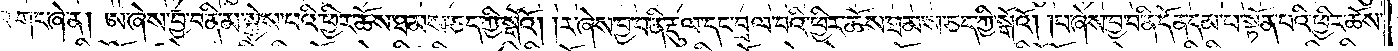གང་ཞེ་ན། ཨ་ཞེས་བྱ་བ་ནི་མ་སྐྱེས་པའི་ཕྱིར་ཆོས་ཐམས་ཅད་ཀྱི་སྒོའོ། །ར་ཞེས་བྱ་བ་ནི་རྡུལ་དང་བྲལ་བའི་ཕྱིར་ཆོས་ཐམས་ཅད་ཀྱི་སྒོའོ། །པ་ཞེས་བྱ་བ་ནི་དོན་དམ་པ་སྟོན་པའི་ཕྱིར་ཆོས་
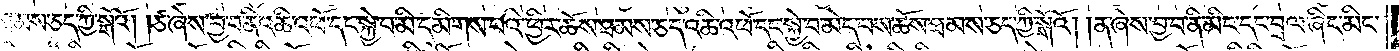ཐམས་ཅད་ཀྱི་སྒོའོ། །ཅ་ཞེས་བྱ་བ་ནི་འཆི་འཕོ་དང་སྐྱེ་བ་མི་དམིགས་པའི་ཕྱིར་ཆོས་ཐམས་ཅད་འཆི་འཕོ་དང་སྐྱེ་བ་མེད་པས་ཆོས་ཐམས་ཅད་ཀྱི་སྒོའོ། །ན་ཞེས་བྱ་བ་ནི་མིང་དང་བྲལ་ཞིང་མིང་
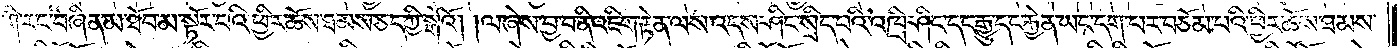གི་རང་བཞིན་མ་ཐོབ་མ་སྟོར་བའི་ཕྱིར་ཆོས་ཐམས་ཅད་ཀྱི་སྒོའོ། །ལ་ཞེས་བྱ་བ་ནི་འཇིག་རྟེན་ལས་འདས་ཤིང་སྲིད་པའི་འཁྲི་ཤིང་དང་རྒྱུ་དང་རྐྱེན་ཡང་དག་པར་བཅོམ་པའི་ཕྱིར་ཆོས་ཐམས་
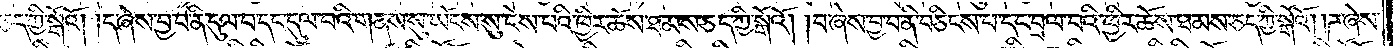ཅད་ཀྱི་སྒོའོ། །ད་ཞེས་བྱ་བ་ནི་དུལ་བ་དང་དུལ་བའི་གནས་སུ་ཡོངས་སུ་ངེས་པའི་ཕྱིར་ཆོས་ཐམས་ཅད་ཀྱི་སྒོའོ། །བ་ཞེས་བྱ་བ་ནི་བཅིངས་པ་དང་བྲལ་བའི་ཕྱིར་ཆོས་ཐམས་ཅད་ཀྱི་སྒོའོ། །ཌ་ཞེས་
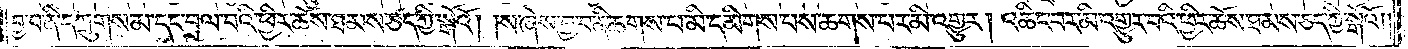བྱ་བ་ནི་དཀྲུགས་མ་དང་བྲལ་བའི་ཕྱིར་ཆོས་ཐམས་ཅད་ཀྱི་སྒོའོ། །ས་ཞེས་བྱ་བ་ནི་ཆགས་པ་མི་དམིགས་པས་ཆགས་པར་མི་འགྱུར། འཆིང་བར་མི་འགྱུར་བའི་ཕྱིར་ཆོས་ཐམས་ཅད་ཀྱི་སྒོའོ། །
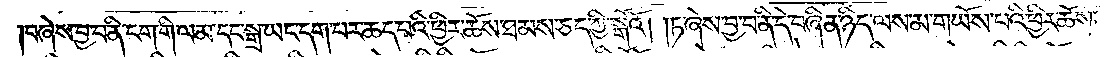བཞེས་བྱ་བ་ནི་ངག་གི་ལམ་དང་སྒྲ་ཡང་དག་པར་ཆད་པའི་ཕྱིར་ཆོས་ཐམས་ཅད་ཀྱི་སྒོའོ། །ཏ་ཞེས་བྱ་བ་ནི་དེ་བཞིན་ཉིད་ལས་མ་གཡོས་པའི་ཕྱིར་ཆོས་
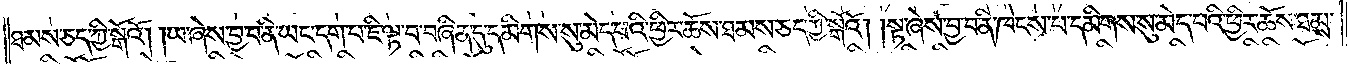ཐམས་ཅད་ཀྱི་སྒོའོ། །ཡ་ཞེས་བྱ་བ་ནི་ཡང་དག་པར་ཇི་ལྟ་བ་བཞིན་དུ་དམིགས་སུ་མེད་པའི་ཕྱིར་ཆོས་ཐམས་ཅད་ཀྱི་སྒོའོ། །སྟ་ཞེས་བྱ་བ་ནི་ཁེངས་པ་དམིགས་སུ་མེད་པའི་ཕྱིར་ཆོས་ཐམས་
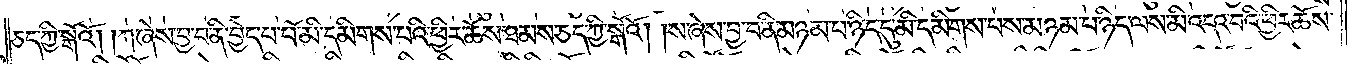ཅད་ཀྱི་སྒོའོ། །ཀ་ཞེས་བྱ་བ་ནི་བྱེད་པ་པོ་མི་དམིགས་པའི་ཕྱིར་ཆོས་ཐམས་ཅད་ཀྱི་སྒོའོ། །ས་ཞེས་བྱ་བ་ནི་མཉམ་པ་ཉིད་དུ་མི་དམིགས་པས་མཉམ་པ་ཉིད་ལས་མི་འདའ་བའི་ཕྱིར་ཆོས་
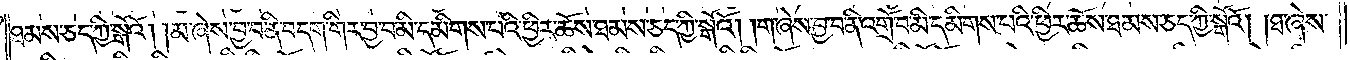ཐམས་ཅད་ཀྱི་སྒོའོ། །མ་ཞེས་བྱ་བ་ནི་བདག་གིར་བྱ་བ་མི་དམིགས་པའི་ཕྱིར་ཆོས་ཐམས་ཅད་ཀྱི་སྒོའོ། །ག་ཞེས་བྱ་བ་ནི་འགྲོ་བ་མི་དམིགས་པའི་ཕྱིར་ཆོས་ཐམས་ཅད་ཀྱི་སྒོའོ། །ཐ་ཞེས་
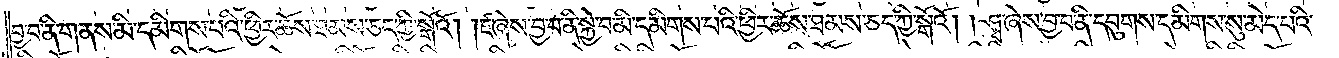བྱ་བ་ནི་གནས་མི་དམིགས་པའི་ཕྱིར་ཆོས་ཐམས་ཅད་ཀྱི་སྒོའོ། །ཇ་ཞེས་བྱ་བ་ནི་སྐྱེ་བ་མི་དམིགས་པའི་ཕྱིར་ཆོས་ཐམས་ཅད་ཀྱི་སྒོའོ། །ཤྭ་ཞེས་བྱ་བ་ནི་དབུགས་དམིགས་སུ་མེད་པའི་
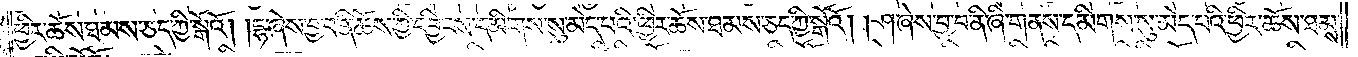ཕྱིར་ཆོས་ཐམས་ཅད་ཀྱི་སྒོའོ། །དྷ་ཞེས་བྱ་བ་ནི་ཆོས་ཀྱི་དབྱིངས་དམིགས་སུ་མེད་པའི་ཕྱིར་ཆོས་ཐམས་ཅད་ཀྱི་སྒོའོ། །ཤ་ཞེས་བྱ་བ་ནི་ཞི་གནས་དམིགས་སུ་མེད་པའི་ཕྱིར་ཆོས་ཐམས་
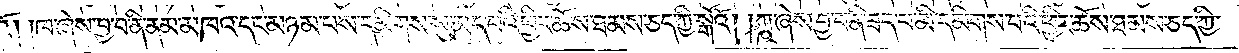ཅད་ཀྱི་སྒོའོ། །ཁ་ཞེས་བྱ་བ་ནི་ནམ་མཁའ་དང་མཉམ་པས་དམིགས་སུ་མེད་པའི་ཕྱིར་ཆོས་ཐམས་ཅད་ཀྱི་སྒོའོ། །ཀྵ་ཞེས་བྱ་བ་ནི་ཟད་པ་མི་དམིགས་པའི་ཕྱིར་ཆོས་ཐམས་ཅད་ཀྱི་
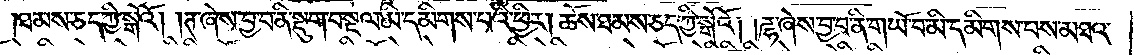ཐམས་ཅད་ཀྱི་སྒོའོ། །ཊ་ཞེས་བྱ་བ་ནི་སྡུག་བསྔལ་མི་དམིགས་པའི་ཕྱིར། ཆོས་ཐམས་ཅད་ཀྱི་སྒོའོ། །ཌྷ་ཞེས་བྱ་བ་ནི་གཡོ་བ་མི་དམིགས་པས་མཐའ་
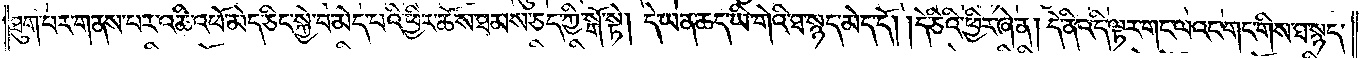ཐུག་པར་གནས་པར་འཆི་འཕོ་མེད་ཅིང་སྐྱེ་བ་མེད་པའི་ཕྱིར་ཆོས་ཐམས་ཅད་ཀྱི་སྒོ་སྟེ། དེ་ཡན་ཆད་ཡི་གེའི་ཐ་སྙད་མེད་དོ། །དེ་ཅིའི་ཕྱིར་ཞེ་ན། དེ་ནི་འདི་ལྟར་གང་ལའང་གང་གིས་ཐ་སྙད་
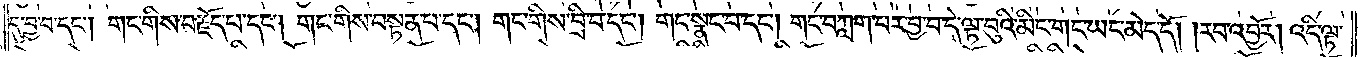དུ་བྱ་བ་དང༌། །གང་གིས་བརྗོད་པ་དང༌། གང་གིས་བསྟན་པ་དང༌། གང་གིས་བྲི་བ་དང༌། གང་སྣང་བ་དང༌། གང་ཀླག་པར་བྱ་བ་དེ་ལྟ་བུའི་མིང་གང་ཡང་མེད་དོ། །རབ་འབྱོར། འདི་ལྟ་
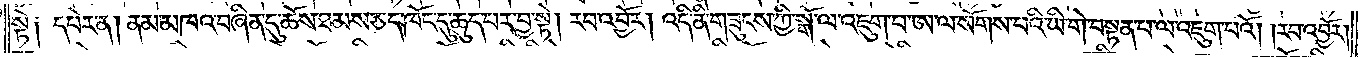སྟེ༑ དཔེར་ན། ནམ་མཁའ་བཞིན་དུ་ཆོས་ཐམས་ཅད་ཁོང་དུ་ཆུད་པར་བྱ་སྟེ། རབ་འབྱོར། འདི་ནི་གཟུངས་ཀྱི་སྒོ་ལ་འཇུག་པ་ཨ་ལ་སོགས་པའི་ཡི་གེ་བསྟན་པ་ལ་འཇུག་པའོ། །རབ་འབྱོར།
